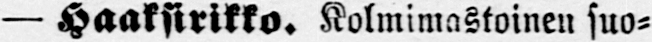— Haaksirikko. Kolmimastoinen suo-
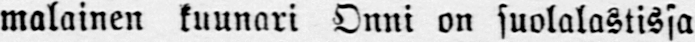malainen kuunari Onni on suolalastissa
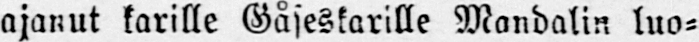ajanut karille Gåseskarille Mandalin luo-
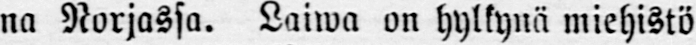na Norjassa. Laiwa on hylkynä miehistö
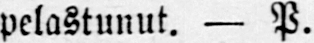pelastunut. — P.
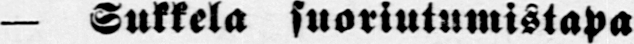— Sukkela suoriutumistapa
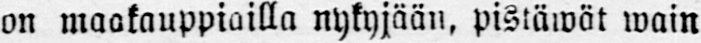on maakauppiailla nykyjään, pistäwät wain
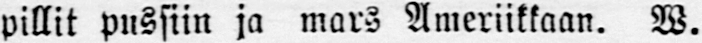pillit pussiin ja mars Ameriikkaan. W.
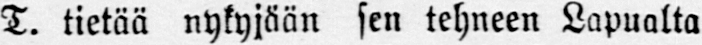T. tietää nykyjään sen tehneen Lapualta
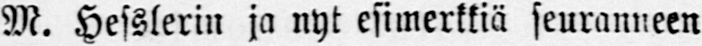M. Hesslerin ja nyt esimerkkiä seuranneen
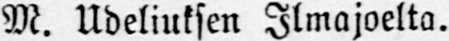M. Udeliuksen Ilmajoelta.
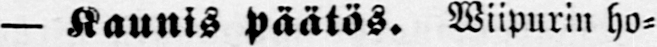— Kaunis päätös. Wiipurin ho-
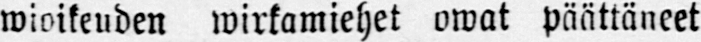wioikeuden wirkamiehet owat päättäneet
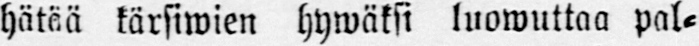hätää kärsiwien hywäksi luowuttaa pal-
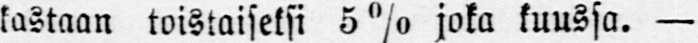kastaan toistaiseksi 5% joka kuussa. —
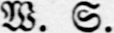W. S.
